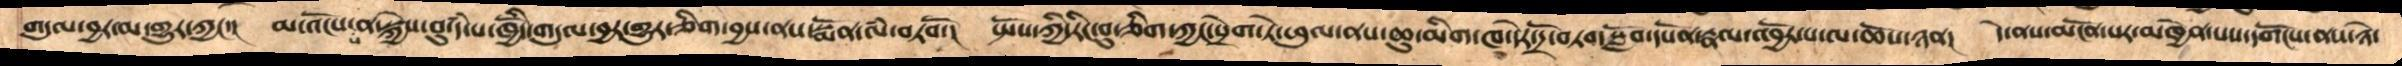གདུལ་བྱར་མ་གྱུར་ཀྱང་། མ་འོངས་པ་ན་སྐྱེས་བུ་དཾ་པ་ཁྱོདི་གདུལ་བྱར་གྱུར་ཅིག་བྱས་ནས་སྨོན་ལཾ་བཏབོ། སྤོས་ཀྱི་རིང་བུ་ཅིག་ཀྱང་སྲེག་ཏེ་ཕུལ་ནས་ཆུ་མིག་ཁ་དེར་དྲོ་བཏབ་སློབ་དཔོན་རྣལ་འབྱོར་པ་ལ་ཆོས་ཉན། དེ་ནས་མངོན་པར་མཁྱེན་པས་དགོངས་ནས་ཉེ་
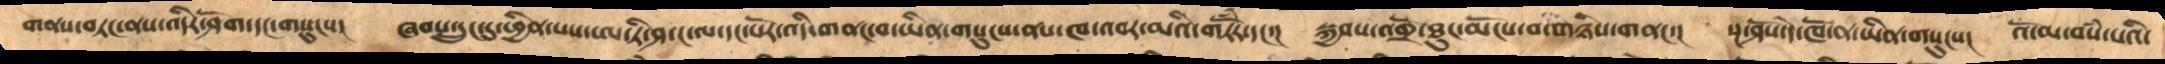གནས་བཏང་ནས་ཤོག་དང་གསུངས།  ཞབས་དྲུང་དུ་ཕྱིན་པས་ཨ་ཏི་ཤ་ང་ལ་དང་པོར་འདི་གནང་བ་ཡིན་གསུངས་ནས་ཁ་འབར་མའི་གཏོཾར་དང་།   སྐྱབས་འགྲོ་ཐུན་མོངས་བ་གཉིས་གནང་།   སྔ་ཤོས་དེ་ཁོ་ན་ཡིན་གསུངས།   འོ་མ་བསཾ་པའི་
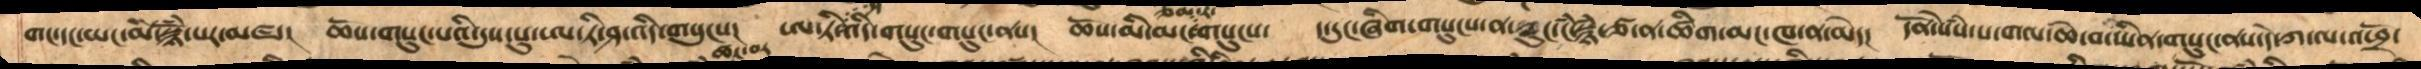གང་དང་ཡང་མི་སྙོཾ་པར་མཛད། ཆོས་གསུང་བའི་དུས་སུ་ཨ་ཏི་ཤ་འདི་གསུངས།  ཨ་ཏིན་ཤ་འདི་གསུང་གསུང་ནས། ཆོས་མི་མང་ཙམ་རེ་གསུངས། ད་དུང་ཞིག་གསུངས་ན་ཉུང་ངཾ་སྙཾ་ཙ་ན་ཚིག་མང་ཁ་ན་མེད། དོན་སེཾས་པ་གལ་ཆེ་བ་ཡིན་གསུང་ནས་དེ་ཀ་ལ་འཕྲོ་
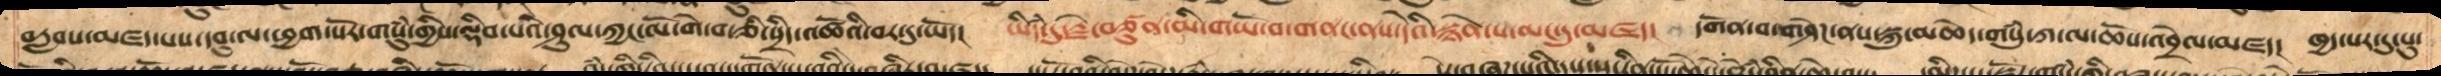བརླབས་ཛད་པས། དབུ་ལ་ཕྱག་སོར་གསུཾ་ཀྱི་ལྡིབ་པའི་ཤུལ་ཀྱང་ལོ་གེ་བ་ཅི་སྲིད་འཚོའི་བར་དུ་ཡོད། ཡིདཾ་དུ་རྗེ་བཙུན་མི་གཡོ་བ་གནང་ནས་དེའི་སྙེན་པ་མང་དུ་མཛད། དགོན་བ་གཤེཌ་ནས་སྐུ་མཆེད་གསུཾ་ཀ་ལ་ཆོས་འབྲེལ་མཛད། ཁྱད་པར་དུ་པུ་
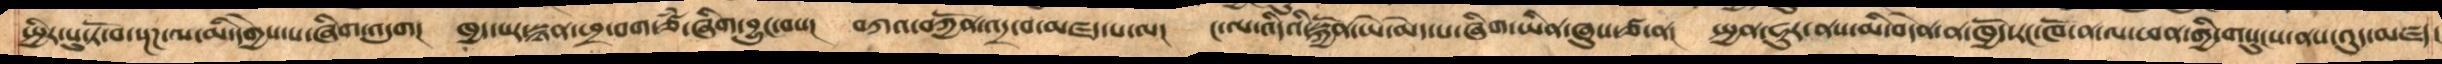སྤྱིར་པུ་ཏོ་བ་སྔཌ་ལ་མི་དགྱེས་པ་ཞིག་འདུག།   ཁྱད་པར་སྙན་ཕྲ་བག་ཙཾ་ཞིག་བྱུང་བས།  བཀའ་བཀྱོན་འདྲ་བ་མཛད་པ་ལ།   ང་ལ་འདིའི་སྐྱོན་ཡེ་མེད་པ་ཞིག་ཡིན་ཞུས་ཙ་ན།   སྤྱན་ཧུར་ནས་མི་བདེན་ན་ཁྱོད་རང་ཁོ་ན་ལ་ཕན་གྱི་གསུངས་ནས་འུད་མཛད།
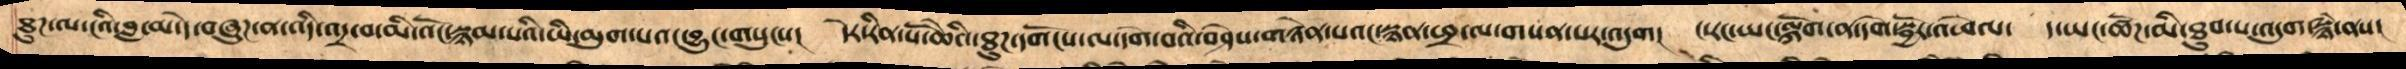ཐུཌ་ལ་ངའི་བླ་མ་དེ་བཞུཌ་ན་འདི་འདྲ་བ་མི་འོང་སྙམ་པའི་ཡི་མུག་པའང་བྱུང་གསུངས་།   དེར་རིན་པོ་ཆེའི་ཐུཌ་དགོངས་ལ་དགེ་བའི་བཤེས་གཉེན་པའང་སྙན་ཕྲ་ལ་གསན་པར་འདུག།    ང་རང་ཡང་ལྐོག་ན་དགེ་སྦྱོར་འཕེལ་   ད་ཡང་ཚོཌ་མི་ཐུབ་པ་འདུག་སྙཾ་ནས།
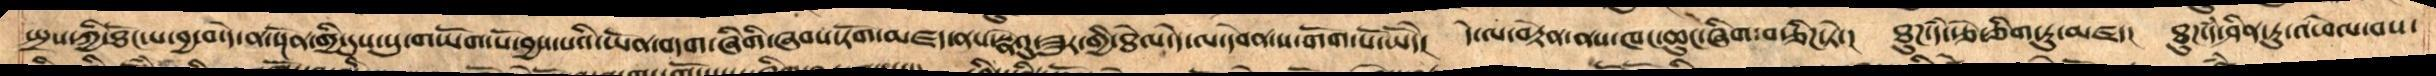སྤྲས་ཀྱི་ཐོང་པ་བྱ་བ་དེ་ན་སྔོན་གྱི་དུས་སུ་གཡོག་པོ་བྱས་པའི་ཡོན་བདག་ཞིགི་ཞབས་ཏོག་མཛད་ནས་སྣེའུ་ཟུར་གྱི་ཐེལ་དེ་ལ་དབེན་ས་གོག་པོ་ཡོདེ།  དེ་ལ་བརྟེན་ནས་ཁང་ཆུང་ཞིག་བརྩིཌ་ཏེ།   ཐུཌ་དཾ་རྩེ་གཅིག་ཏུ་མཛད།   ཐུཌ་དཾ་ཤིན་ཏུ་འཕེལ་བས་
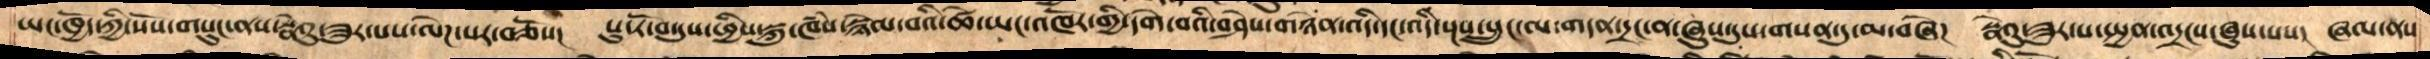ཡང་ཁྱོད་ཀྱི་སོས་གསུང་ནས་སྣེའུ་ཟུར་པས་ལེཌ་པར་བཅོས།  པུ་ཏོ་བ་དུས་ཕྱིས་སྐུ་ཁཾས་སྙེལ་བའི་ཚེཡང་འཁོར་གྱི་དགེ་བའི་བཤེས་གཉེན་འདི་དང་འདི་སྔས་སྲུང་ལ་གདན་དྲང་ན་ཞུས་དུས་གསན་དུ་མ་བཞེ།   སྣེའུ་ཟུར་པ་སྤྱན་འདྲངས་ཞུས་པས། ཞལ་ནས
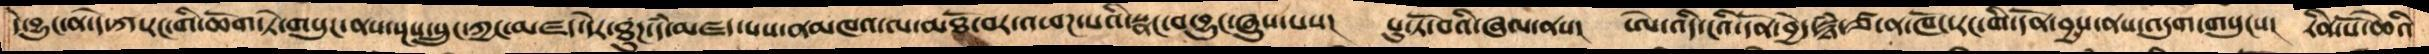དེ་བྱུང་ན་དེ་ཀ་རང་གི་ཆོག་ཏེ་གསུང་ནས་སྔས་སྲུང་ཀྱང་མཛད་དེར་ཐུཌ་དཾ་མཛད་པས་ནམཁའ་ལ་མཐོ་བར་འཕཌ་པའི་སྣང་བ་བྱུང་ཞུས་པས།  པུ་ཏོ་བའི་ཞལ་ནས།  ཨེ་འདི་ངའི་དོན་བྱེད་སྙཾ་ཙ་ན་ཁོང་རང་གི་དོན་བྱས་ནས་འདུག་གསུངས།  རིན་པོ་ཆེའི་
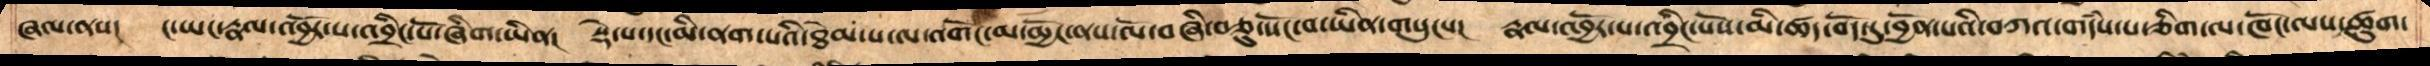ཞལ་ནས།  ང་ཡང་རྣལ་འབྱོར་པ་འབྲིང་པོ་ཞིག་ཡིན།  སྡེ་པ་དང་མི་ནག་པའི་ཐེམ་པ་ལ་འགོང་མ་མྱོང་ནས་ལོ་བཞི་བཅུ་སོང་བ་ཡིན་གསུངས།  རྣལ་འབྱོར་པ་འབྲིང་པོས་མི་ཚད་བོད་དུ་བྱོན་པའི་བཀའ་གདཾས་པ་ཅིག་ལ་ཁོང་ལས་ཚུག་
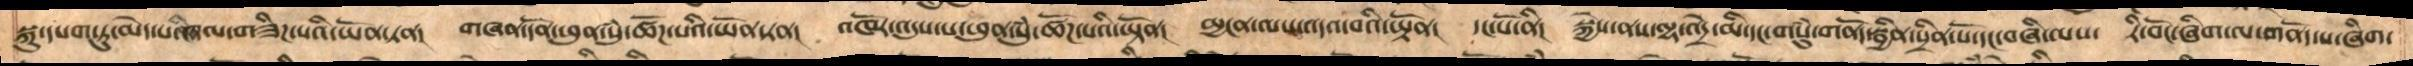སྐུ་དཔག་ཏུ་མེད་པའི་ཞལ་གཟིཌ་པའི་ཡོན་ཏན།   གཞན་དོན་ཕུན་སུཾ་ཚོཌ་པའི་ཡོན་ཏན།   འཁོར་འདུས་པ་ཕུན་སུཾ་ཚོཌ་པའི་ཡྟོན།   མྱངན་ལས་འདའ་བའི་ཡྟོན།  དང་པོ་ནི།   སྐྱེས་ནས་ལྷ་འདྲེ་མི་དང་གསུཾ་གནོད་སྦྱིན་སྲིན་པོ་དང་བཞི་ལས།   རི་བོང་ཞིག་ལ་གནོད་པ་ཞིག་
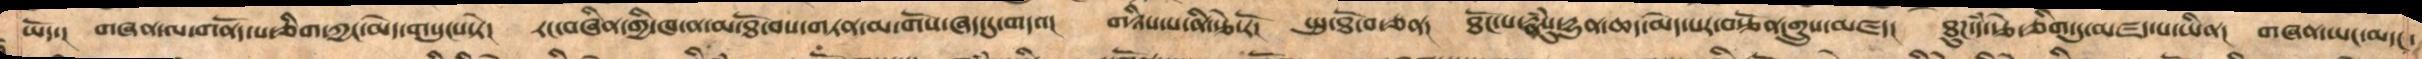ཡོད་།  གཞན་ལ་གནོད་པ་ཅིག་ཀྱང་མེད་གསུངས་ཏེ།  རང་བཞིན་གྱི་ཁ་ན་མ་ཐོ་བས་གཏན་མ་གོས་པའི་ཞང་དུ་གདའ།   གཉིས་པ་ནི་རྩེ་རོ།   སྤུ་ཐོ་བ་ཅན།   ཐོང་པ་རྣཾསུ་དྱུན་ཆད་མེད་པར་བརྩོན་གྲུས་མཛད།   ཐུཌ་དཾ་རྩེ་ཅིག་དུ་མཛད་པ་ཡིན།  གཞན་ཡང་མདང་
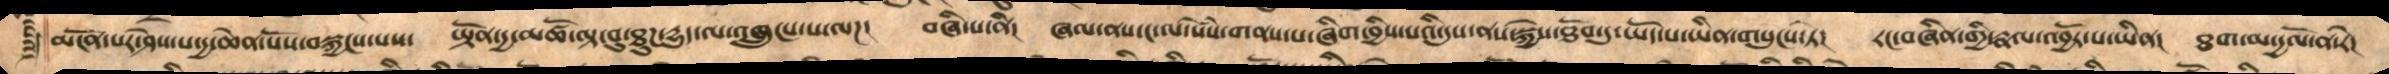མངོན་པར་ཤེས་པ་དྱ་ཆེན་པོས་བསྐྱངས་པས། ཡྟོན་དྱ་མཚོ་ལྟ་བུ་ཐུཌ་དྱུད་ལ་འཁྲུངས་པ་ལཌ། བཞི་པ་ནི། ཞལ་ནས་ང་ལ་སེཾས་གནས་པ་ཞིག་བྱིས་པའི་དུས་ནས་སྐྱེས་ཐོབ་ཏུ་ཡོད་པ་ཡིན་གསུངས་ཏེ། རང་བཞིན་གྱི་རྣལ་འབྱོར་པ་ཡིན། ཐག་མ་དྱལོ་ན་རེ།
